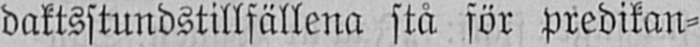daktsstundstillfällena stå för predikan-
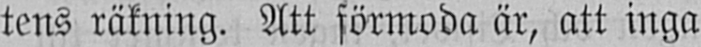tens räkning. Att förmoda är, att inga
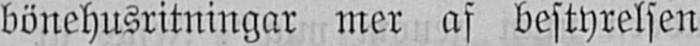bönehusritningar mer af bestyrelsen
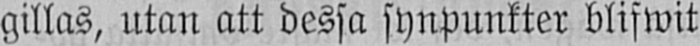gillas, utan att dessa synpunkter blifwit
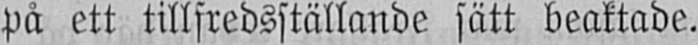på ett tillfredsställande sätt beaktade.
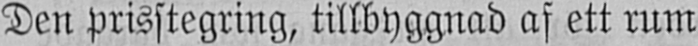Den prisstegring, tillbyggnad af ett rum
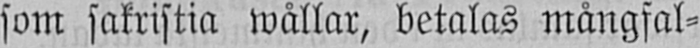som sakristia wållar, betalas mångfal-
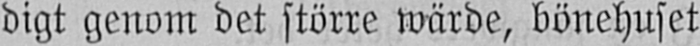digt genom det större wärde, bönehuset
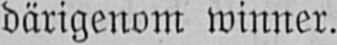därigenom winner.
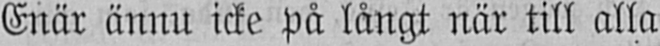Enär ännu icke på långt när till alla
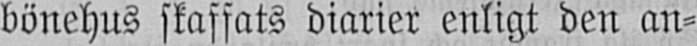bönehus skaffats diarier enligt den an-
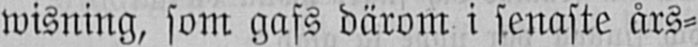wisning, som gafs därom i senaste års-
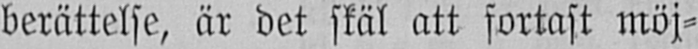berättelse, är det skäl att fortast möj-
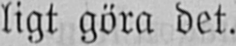ligt göra det.
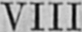VIII
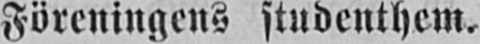Föreningens studenthem.
